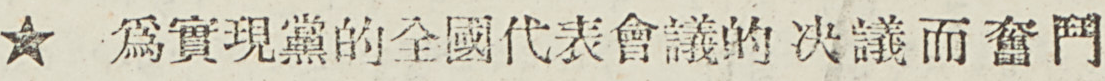★ 爲實現黨的全國代表會議的決議而奮鬥
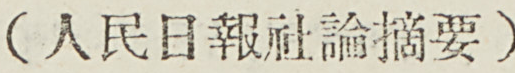（人民日報社論摘要）
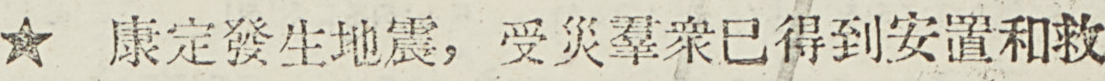★ 康定發生地震，受災羣衆已得到安置和救
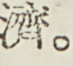濟。
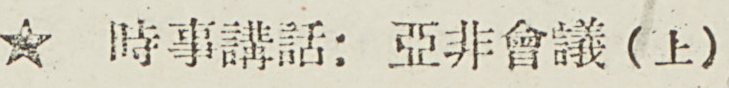★ 時事講話：亞非會議（上）
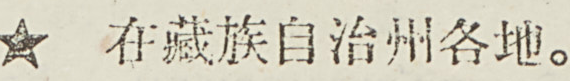★ 在藏族自治州各地。
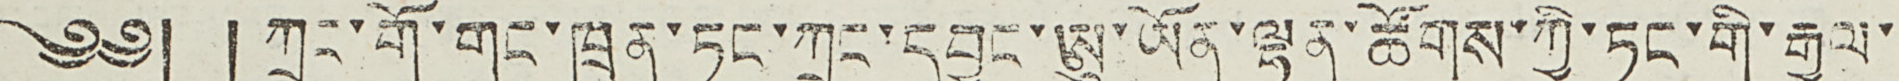༄༅། ། ཀྲུང་གོ་གུང་ཁྲན་ཏང་ཀྲུང་དབྱང་ཨུ་ཡོན་ལྷན་ཚོགས་ཀྱི་ཏང་གི་རྒྱལ་
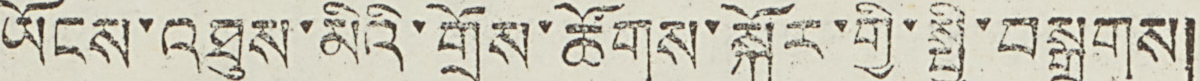ཡོངས་འཐུས་མིའི་གྲོས་ཚོགས་སྐོར་གྱི་སྤྱི་བསྒྲགས།
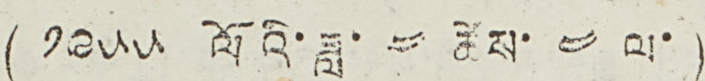( ༡༩༥༥ ལོའི་ཟླ་ ༤ ཚེས་ ༤ ལ་ )
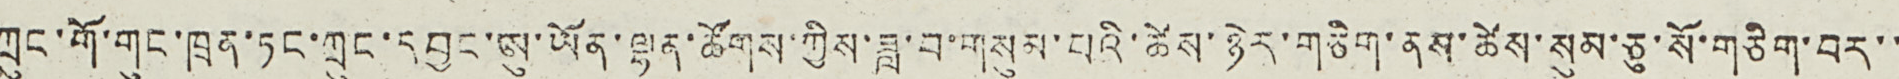ཀྲུང་གོ་གུང་ཁྲན་ཏང་ཀྲུང་དབྱང་ཨུ་ཡོན་ལྷན་ཚོགས་ཀྱིས་ཟླ་བ་གསུམ་པའི་ཚེས་ཉེར་གཅིག་ནས་ཚེས་སུམ་ཅུ་སོ་གཅིག་བར་་
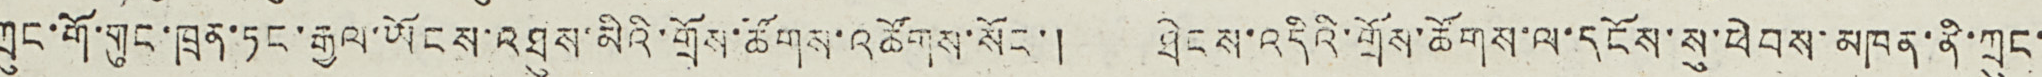ཀྲུང་གོ་གུང་ཁྲན་ཏང་རྒྱལ་ཡོངས་འཐུས་མིའི་གྲོས་ཚོགས་འཚོགས་སོང་། ཐེངས་འདིའི་གྲོས་ཚོགས་ལ་དངོས་སུ་ཕེབས་མཁན་ནི་ཀྲུང་
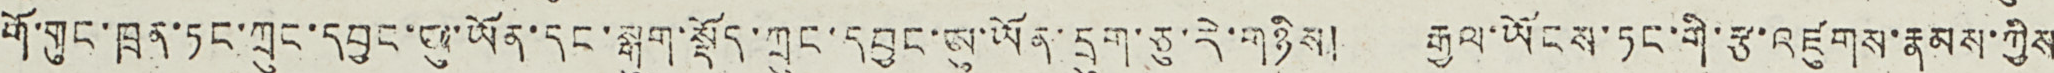གོ་གུང་ཁྲན་ཏང་ཀྲུང་དབྱང་ཨུ་ཡོན་དང་སྒུག་སྡོད་ཀྲུང་དབྱང་ཨུ་ཡོན་དྲུག་ཅུ་རེ་གཉིས། རྒྱལ་ཡོངས་ཏང་གི་རྩ་འཛུགས་རྣམས་ཀྱིས
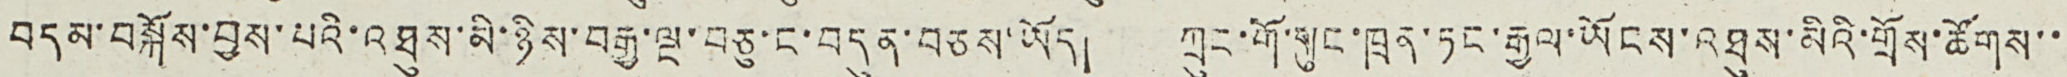བདམ་བསྐོམ་བྱས་པའི་འཐུས་མི་ཉིས་བརྒྱ་ལྔ་བཅུ་ང་བདུན་བཅས་ཡོད། ཀྲུང་གོ་གུང་ཁྲན་ཏང་རྒྱལ་ཡོངས་འཐུས་མིའི་གྲོས་ཚོགས་་
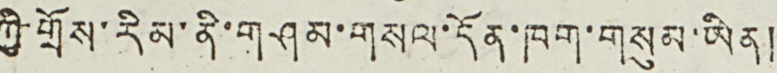ཀྱི་གྲོས་རིམ་ནི་གཤམ་གསལ་དོན་ཁག་གསུམ་ཡིན།
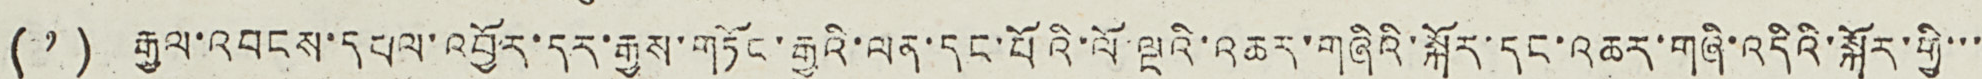(༡) རྒྱལ་འབངས་དཔལ་འབྱོར་དར་རྒྱས་གཏོང་རྒྱུའི་ལན་དང་པོའི་ལོ་ལྔའི་འཆར་གཞིའི་སྐོར་དང་འཆར་གཞི་འདིའི་སྐོར་གྱི་་་
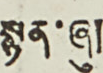སྙན་ཞུ།
